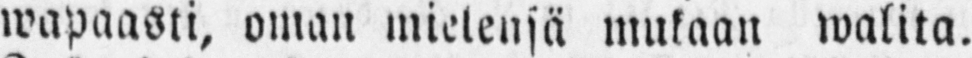wapaasti, oman mielensä mukaan walita.
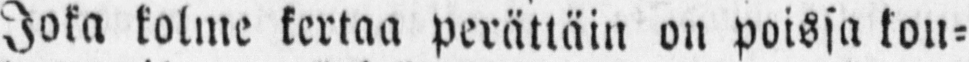Joka kolme kertaa perättäin on poissa ton-
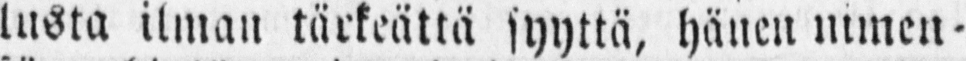tusta ilman tärkeättä syyttä, hänen nimen-
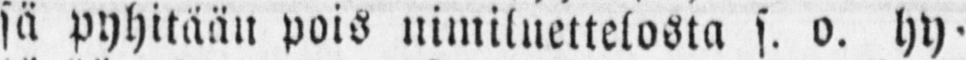sä pyhitään pois nimiluettelosta s. o. hy-
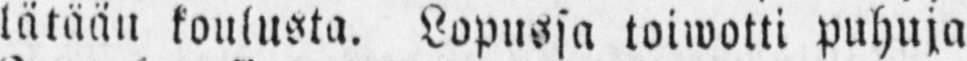lätään koulusta. Lopussa toiwotti puhuja
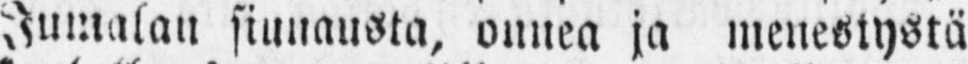Jumalan siunausta, onnea ja menestystä
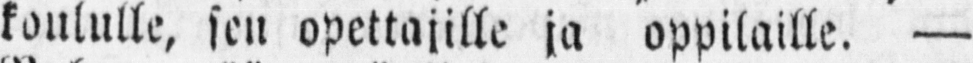koululle, sen opettajille ja oppilaille. —
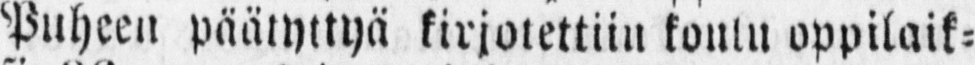Puheen päätyttyä kirjotettiin koulu oppilaik-
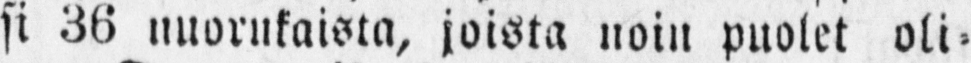si 36 nuorukaista, joista noin puolet oli-
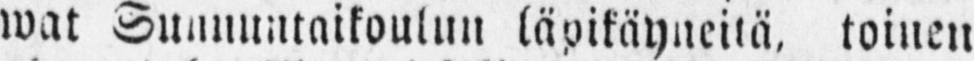wat Sunnuntaikoulun läpikäyneitä, toinen
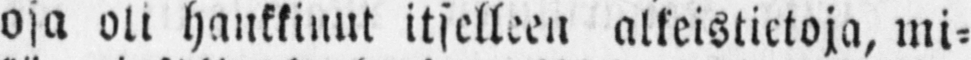osa oli hankkinut itselleen alkeistietoja, mi-
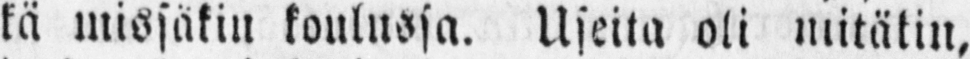kä missäkin koulussa. Useita oli niitäkin,
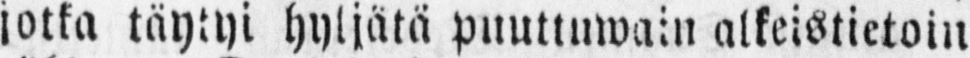jotka täytyi hyljätä puuttuwain alkeistietoin
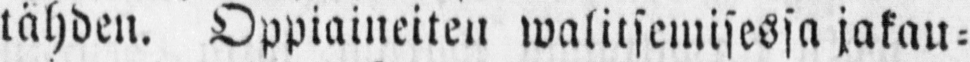tähden. Oppiaineiten walitsemisessa jakau-
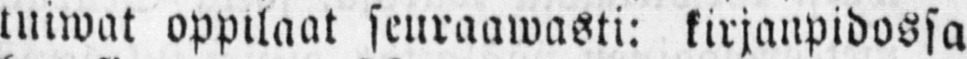tuiwat oppilaat seuraawasti: kirjanpidossa
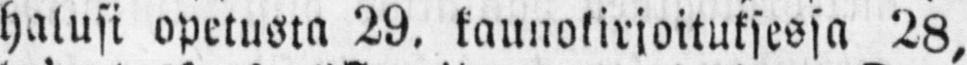halusi opetusta 29. kaunokirjoituksessa 28,
